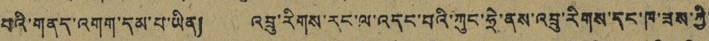པའི་གནད་འགག་དམ་པ་ཡིན། འབྲུ་རིགས་རང་ལ་འདང་བའི་ཀུང་ཧྲེ་ནས་འབྲུ་རིགས་དང་ཁ་ཟས་ཀྱི་
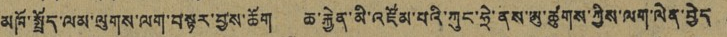མཁོ་སྤྲོད་ལམ་ལུགས་ལག་བསྟར་བྱས་ཆོག ཆ་རྐྱེན་མི་འཛོམ་པའི་ཀུང་ཧྲེ་ནས་ཨུ་ཚུགས་ཀྱིས་ལག་ལེན་བྱེད
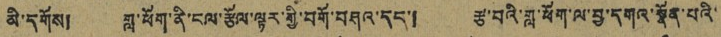མི་དགོས། གླ་ཕོག་ནི་ངལ་རྩོལ་ལྟར་གྱི་བགོ་བཤའ་དང་། རྩ་བའི་གླ་ཕོག་ལ་བྱ་དགའ་སྣོན་པའི་
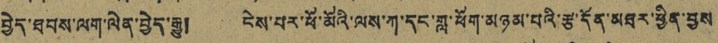བྱེད་ཐབས་ལག་ལེན་བྱེད་རྒྱུ། ངེས་པར་ཕོ་མོའི་ལས་ཀ་དང་གླ་ཕོག་མཉམ་པའི་རྩ་དོན་མཐར་ཕྱིན་བྱས
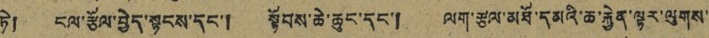ཏེ། ངལ་རྩོལ་བྱེད་སྟངས་དང་། སྟོབས་ཆེ་ཆུང་དང་། ལག་རྩལ་མཐོ་དམའི་ཆ་རྐྱེན་ལྟར་ལུགས་
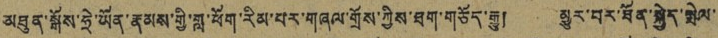མཐུན་སྒོས་ཧྲེ་ཡོན་རྣམས་གྱི་གླ་ཕོག་རིམ་པར་གཞལ་གྲོས་ཀྱིས་ཐག་གཅོད་རྒྱུ། མྱུར་བར་ཐོན་སྐྱེད་སྤེལ་
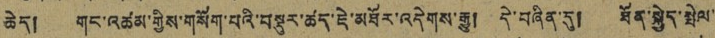ཆེད། གང་འཚམ་གྱིས་གསོག་པའི་བསྡུར་ཚད་ཇེ་མཐོ་འདེགས་རྒྱུ། དེ་བཞིན་དུ། ཐོན་སྐྱེད་སྤེལ་
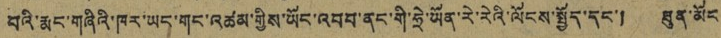བའི་རྨང་གཞིའི་ཁར་ཡང་གང་འཚམ་གྱིས་ཡོང་འབབ་ནང་གི་ཧྲེ་ཡོན་རེ་རེའི་ལོངས་སྤྱོད་དང་། ཐུན་མོང
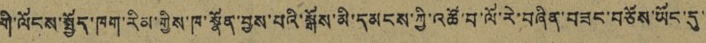གི་ལོངས་སྤྱོད་ཁག་རིམ་གྱིས་ཁ་སྣོན་བྱས་པའི་སྒོས་མི་དམངས་ཀྱི་འཚོ་བ་ལོ་རེ་བཞིན་བཟང་བཅོས་ཡོང་དུ་་
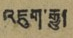འཇུག་རྒྱུ།
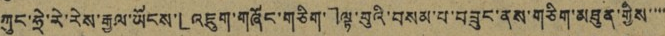ཀུང་ཧྲེ་རེ་རེས་རྒྱལ་ཡོངས་「འཇུག་གཞོང་གཅིག་」ལྟ་བུའི་བསམ་པ་བཟུང་ནས་གཅིག་མཐུན་གྱིས་་་་
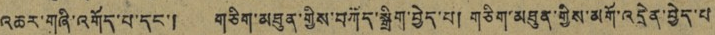འཆར་གཞི་འགོད་པ་དང་། གཅིག་མཐུན་གྱིས་བཀོད་སྒྲིག་བྱེད་པ། གཅིག་མཐུན་གྱིས་མགོ་འདྲེན་བྱེད་པ
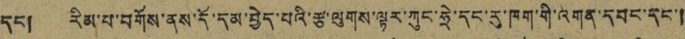དང། རིམ་པ་བགོས་ནས་དོ་དམ་བྱེད་པའི་རྩ་ལུགས་ལྟར་ཀུང་ཧྲེ་དང་རུ་ཁག་གི་འགན་དབང་དང་།
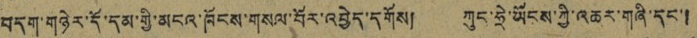བདག་གཉེར་དོ་དམ་གྱི་མངའ་ཁོངས་གསལ་བོར་འབྱེད་དགོས། ཀུང་ཧྲེ་ཡོངས་ཀྱི་འཆར་གཞི་དང་།
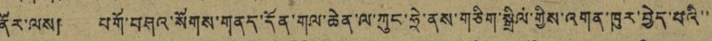ནོར་ལས། བགོ་བཤའ་སོགས་གནད་དོན་གལ་ཆེན་ལ་ཀུང་ཧེ་ནས་གཅིག་སྒྲིལ་གྱིས་འགན་ཁུར་བྱེད་པའི་་
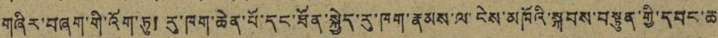གཞིར་བཞག་གི་འོག་ཏུ། རུ་ཁག་ཆེན་པོ་དང་ཐོན་སྐྱེད་རུ་ཁག་རྣམས་ལ་ངེས་མཁོའི་སྐབས་བསྟུན་གྱི་དབང་ཆ
